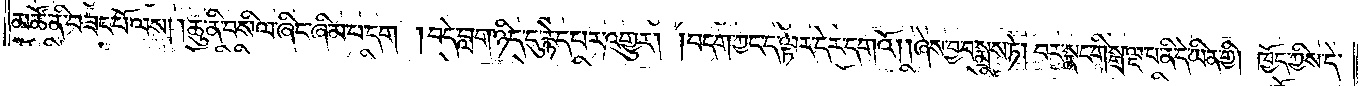མཚོ་ནི་བཟང་པོ་ལས། །ཆུ་ནི་བསིལ་ཞིང་ཞིམ་པ་དག །བདེ་བླག་ཉིད་དུ་རྙེད་པར་འགྱུར། །བདག་ཀྱང་ད་ལྟར་དེར་དགའོ། །ཞེས་བྱ་བ་སྨྲས་ཏེ། བར་སྣང་གི་སྒྲ་ལྔ་པ་ནི་དེ་ཡིན་གྱི། ཁྱོད་ཀྱིས་དེ་
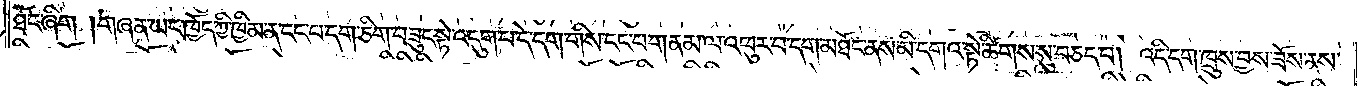ཐོང་ཞིག །གཞན་ཡང་ཁྱོད་ཀྱི་ཁྱིམ་ན་ངང་པ་དག་ཅིག་བཟུང་སྟེ་འདུག་པ་དེ་དག་གིས་ངང་པ་གནམ་ལ་འཕུར་བ་དག་མཐོང་ནས་མི་དགའ་སྟེ་ཚིགས་སུ་བཅད་པ། འདི་དག་ཁྲུས་བྱས་ཟོས་ནས་
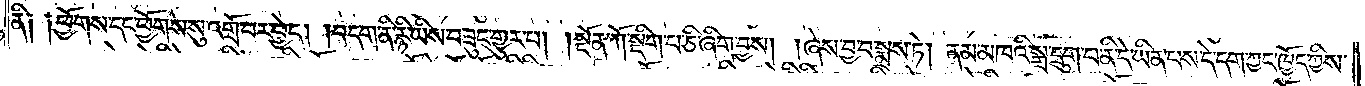ནི༑ ༑ཕྱོགས་དང་ཕྱོགས་སུ་འགྲོ་བར་བྱེད། །བདག་ནི་རྙི་ཡིས་བཟུང་གྱུར་པ། །སྔོན་ཀོ་སྡིག་པ་ཅི་ཞིག་བྱས། །ཞེས་བྱ་བ་སྨྲས་ཏེ། ནམ་མཁའི་སྒྲ་དྲུག་པ་ནི་དེ་ཡིན་པས་དེ་དག་ཀྱང་ཁྱོད་ཀྱིས་
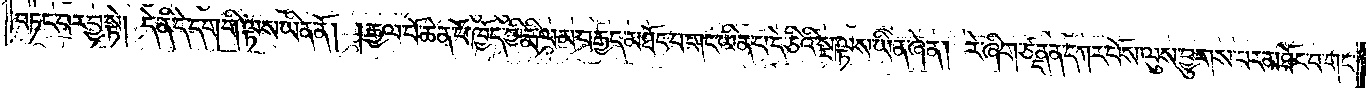བཏང་བར་བྱ་སྟེ། དེ་ནི་དེ་དག་གི་ལྟས་ཡིན་ནོ། །རྒྱལ་པོ་ཆེན་པོ་ཁྱོད་ཀྱི་རྨི་ལམ་བརྒྱད་མཐོང་བ་གང་ཡིན་པ་དེ་ཅིའི་སྔ་ལྟས་ཡིན་ཞེན། རེ་ཞིག་ཙནྡན་དཀར་པོས་ལུས་བྱུགས་པར་མཐོང་བ་གང་
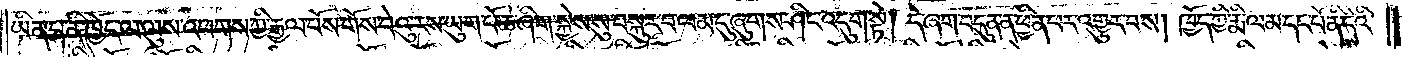ཡིན་པ་ནི་ཁྱོད་ལ་ལུས་འཕགས་ཀྱི་རྒྱལ་པོས་གོས་བེའུ་རས་ཡུག་པོ་ཆེ་ཞིག་སྐྱེས་སུ་བསྐུར་བ་ལམ་དུ་ཞུགས་ཤིང་འདུག་སྟེ། དེ་ཞག་བདུན་ན་ཕྱིན་པར་འགྱུར་བས། ཁྱོད་ཀྱི་རྨི་ལམ་དང་པོ་ནི་དེའི་
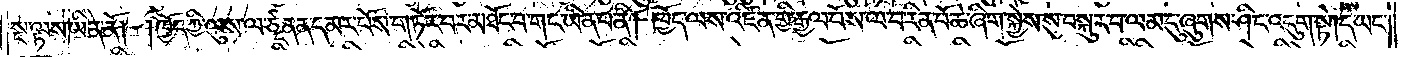སྔ་ལྟས་ཡིན་ནོ། །ཁྱོད་ཀྱི་ལུས་ལ་ཙནྡན་དམར་པོས་གཏོར་བར་མཐོང་བ་གང་ཡིན་པ་ནི། ཁྱོད་ལས་འཛིན་གྱི་རྒྱལ་པོས་ལ་བ་རིན་པོ་ཆེ་ཞིག་སྐྱེས་སུ་བསྐུར་བ་ལམ་དུ་ཞུགས་ཤིང་འདུག་སྟེ། དེ་ཡང་
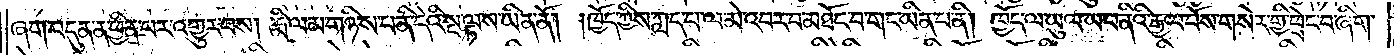ཞག་བདུན་ན་ཕྱིན་པར་འགྱུར་བས། རྨི་ལམ་གཉིས་པ་ནི་དེའི་སྔ་ལྟས་ཡིན་ནོ། །ཁྱོད་ཀྱིས་ཀླད་པ་ལ་མེ་འབར་བ་མཐོང་བ་གང་ཡིན་པ་ནི། ཁྱོད་ལ་ཡུལ་ཡ་བ་ནིའི་རྒྱལ་པོས་གསེར་གྱི་ཕྲེང་བ་ཞིག་
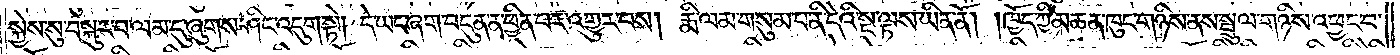སྐྱེས་སུ་བསྐུར་བ་ལམ་དུ་ཞུགས་ཤིང་འདུག་སྟེ། དེ་ཡང་ཞག་བདུན་ན་ཕྱིན་པར་འགྱུར་བས། རྨི་ལམ་གསུམ་པ་ནི་དེའི་སྔ་ལྟས་ཡིན་ནོ། །ཁྱོད་ཀྱི་མཆན་ཁུང་གཉིས་ནས་སྦྲུལ་གཉིས་འཕྱང་བ་
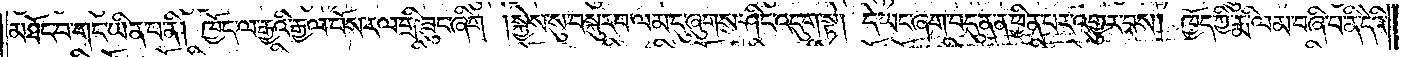མཐོང་བ་གང་ཡིན་པ་ནི། ཁྱོད་ལ་རྒྱའི་རྒྱལ་པོས་རལ་གྲི་ཟུང་ཞིག །སྐྱེས་སུ་བསྐུར་བ་ལམ་དུ་ཞུགས་ཤིང་འདུག་སྟེ། དེ་ཡང་ཞག་བདུན་ན་ཕྱིན་པར་འགྱུར་བས། ཁྱོད་ཀྱི་རྨི་ལམ་བཞི་པ་ནི་དེའི་
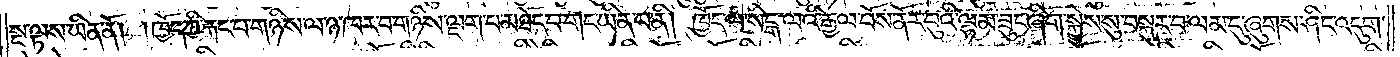སྔ་ལྟས་ཡིན་ནོ། །ཁྱོད་ཀྱི་རྐང་པ་གཉིས་ལ་ཉ་ཁར་བ་གཉིས་ལྡག་པ་མཐོང་བ་གང་ཡིན་པ་ནི། ཁྱོད་ལ་སིངྒ་ལའི་རྒྱལ་པོས་ནོར་བུའི་ལྷམ་ཟུང་ཞིག་སྐྱེས་སུ་བསྐུར་བ་ལམ་དུ་ཞུགས་ཤིང་འདུག་
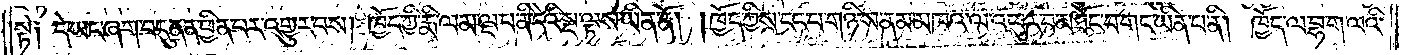སྟེ༑ དེ་ཡང་ཞག་བདུན་ན་ཕྱིན་པར་འགྱུར་བས། ཁྱོད་ཀྱི་རྨི་ལམ་ལྔ་པ་ནི་དེའི་སྔ་ལྟས་ཡིན་ནོ། །ཁྱོད་ཀྱིས་ངང་པ་གཉིས་ནམ་མཁའ་ལ་འཕུར་བ་མཐོང་བ་གང་ཡིན་པ་ནི། ཁྱོད་ལ་བྷ་ག་ལའི་
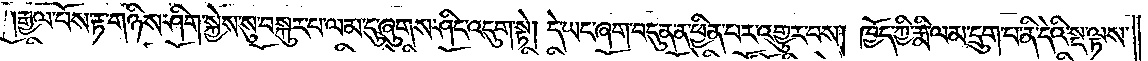།རྒྱལ་པོས་རྟ་གཉིས་ཤིག་སྐྱེས་སུ་བསྐུར་བ་ལམ་དུ་ཞུགས་ཤིང་འདུག་སྟེ། དེ་ཡང་ཞག་བདུན་ན་ཕྱིན་པར་འགྱུར་བས། ཁྱོད་ཀྱི་རྨི་ལམ་དྲུག་པ་ནི་དེའི་སྔ་ལྟས་
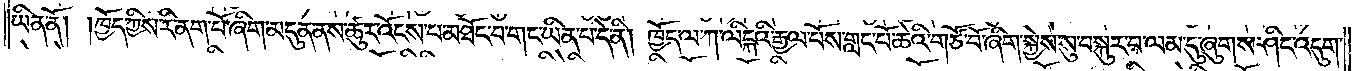ཡིན་ནོ། །ཁྱོད་ཀྱིས་རི་ནག་པོ་ཞིག་མདུན་ནས་ཚུར་འོངས་པ་མཐོང་བ་གང་ཡིན་པ་དེ་ནི། ཁྱོད་ལ་ཀ་ལིངྐའི་རྒྱལ་པོས་གླང་པོ་ཆེའི་གཙོ་བོ་ཞིག་སྐྱེས་སུ་བསྐུར་བ་ལམ་དུ་ཞུགས་ཤིང་འདུག་
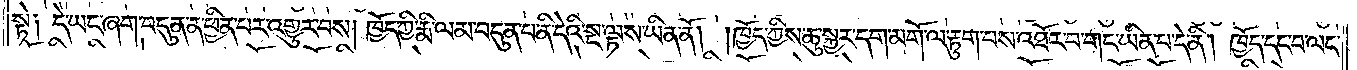སྟེ༑ དེ་ཡང་ཞག་བདུན་ན་ཕྱིན་པར་འགྱུར་བས། ཁྱོད་ཀྱི་རྨི་ལམ་བདུན་པ་ནི་དེའི་སྔ་ལྟས་ཡིན་ནོ། །ཁྱོད་ཀྱིས་ཆུ་སྐྱར་དག་མགོ་ལ་རྟུག་པས་འཐོར་བ་གང་ཡིན་པ་དེ་ནི། ཁྱོད་དང་བ་ལང་
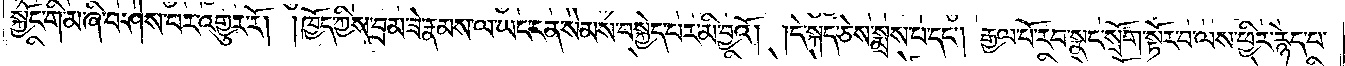སྐྱོང་གི་མ་ཞི་བ་ཤེས་པར་འགྱུར་རོ། །ཁྱོད་ཀྱིས་བྲམ་ཟེ་རྣམས་ལ་ཡང་ངན་སེམས་བསྐྱེད་པར་མི་བྱའོ། །དེ་སྐད་ཅེས་སྨྲས་པ་དང༌། རྒྱལ་པོ་རབ་སྣང་སྲོག་སྟོར་བ་ལས་ཕྱིར་རྙེད་པ་
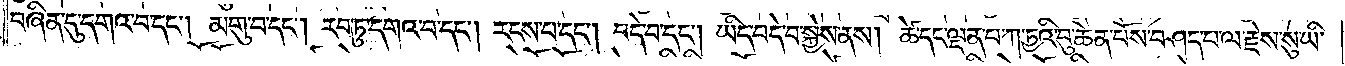བཞིན་དུ་དགའ་བ་དང༌། མགུ་བ་དང༌། རབ་ཏུ་དགའ་བ་དང༌། རངས་པ་དང༌། བདེ་བ་དང༌། ཡིད་བདེ་བ་སྐྱེས་ནས། ཚེ་དང་ལྡན་པ་ཀ་ཏྱའི་བུ་ཆེན་པོས་བཤད་པ་ལ་རྗེས་སུ་ཡི་
